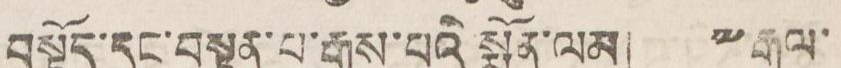བསྟོད་དང་བསྟན་པ་རྒྱས་པའི སྨོན་ལམ། ༸རྒྱལ་
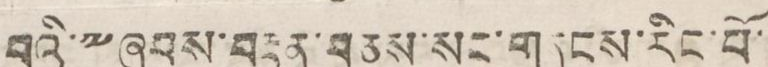བའི་༸ཞབས་བརྟན་བཅས་སང་གནངས་རིང་པོ་
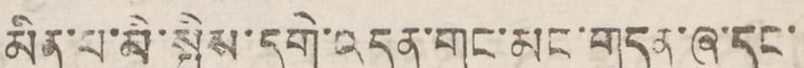མིན་པ་མི་སྤྱིས་དགེ་འདུན་གང་མང་གདན་ཞུ་དང་
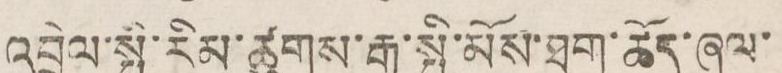འབྲེལ་སྤྱི་རིམ་ཚུགས་རྒྱུ་སྤྱི་མོས་ཐག་ཆོད་ཞལ་
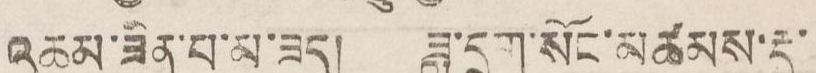འཆམ་ཟིན་པ་མ་ཟད། ཟླ་དྲུག་སོང་མཚམས་རྡ་
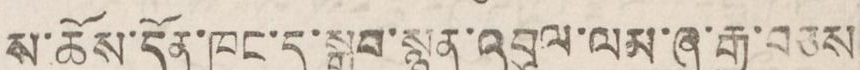ས་ཆོས་དོན་ཁང་དུ་སྒྲུབ་སྙན་འབུལ་ལམ་ཞུ་རྒྱུ་བཅས
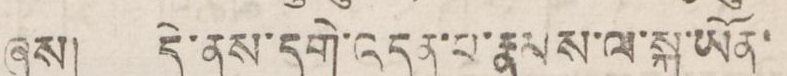ཞུས། དེ་ནས་དགེ་འདུན་པ་རྣམས་ལ་སྐུ་ཡོན་
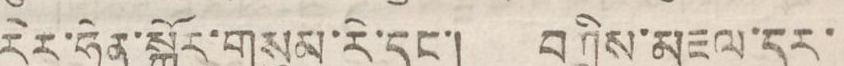རེར་ཧེན་སྒོར་རེ་དང་། བཀྲིས་མཇལ་དར་
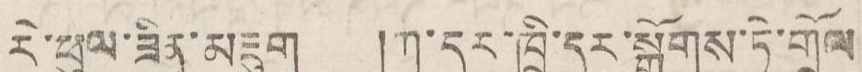རེ་ཕུལ་ཟིན་འཇུག །ཀ་དར་ཁྲི་དར་སྒྲོགས་ཏེ་གྲོལ
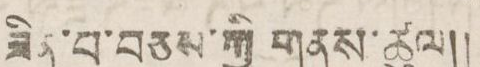ཟིན་པ་བཅས་ཀྱི གནས་ཚུལ།།
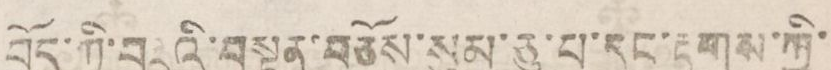བོད་ཀྱི་བརྡའི་བསྟན་བཅོས་སུམ་ཅུ་པ་དང་རྟགས་ཀྱི་
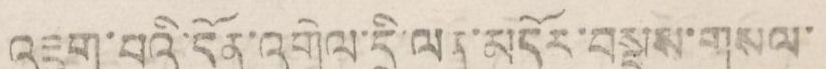འཇུག་པའི་དོན་འགྲེལ་དྲི་ལན་མདོར་བསྡུས་གསལ་
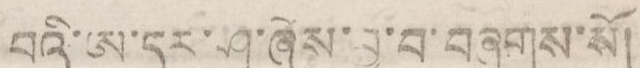བའི་ཨ་དར་ཤ་ཞེས་བྱ་བ་བཞུགས་སོ།
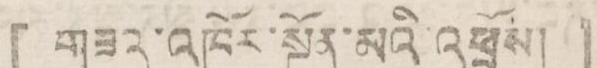[ གཟའ་འཁོར་སྔོན་མའི་འཕྲོས། ]
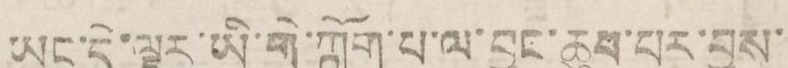ཡང་དེ་ལྟར་ཡི་གེ་ཀློག་པ་ལ་བྱང་ཆུབ་པར་བྱས་
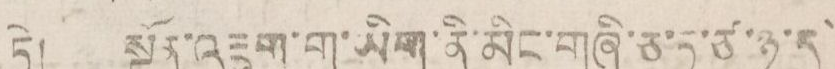ཏེ། སྔོན་འཇུག་ག་ཡིག་ནི་མིང་གཞི་ཅ་ཏ་ཙ་ཉ་ད
